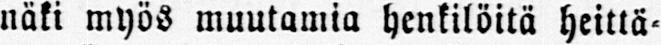näki myös muutamia henkilöitä heittä-
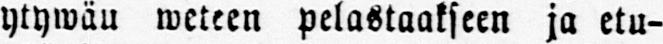ytywäu weteen pelastaakseen ja etu-
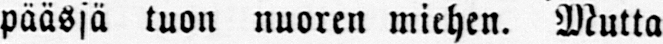päässä tuon nuoren miehen. Mutta
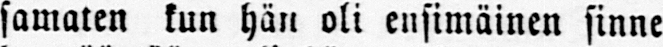samaten kun hän oli ensimäinen sinne
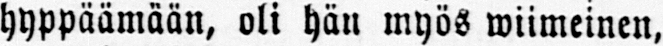hyppäämään, oli hän myös wiimeinen,
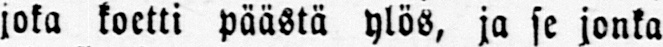joka koetti päästä ylös, ja se jonka
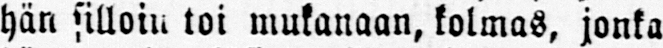hän silloin toi mukanaan, kolmas, jonka
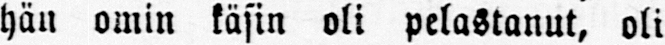hän omin käsin oli pelastanut, oli
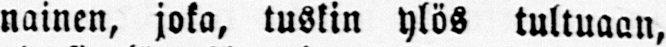nainen, joka, tuskin ylös tultuaan,
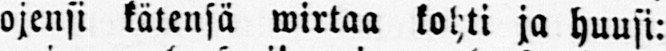ojensi kätensä wirtaa kohti ja huusi:
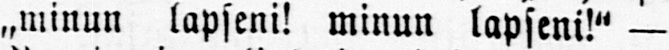„minun lapseni! minun lapseni!" —
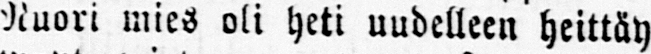Nuori mies oli heti uudelleen heittäy
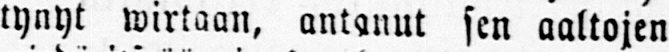tynyt wirtaan, antanut sen aaltojen
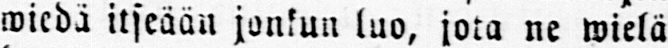wiedä itseään jonkun luo, jota ne wielä
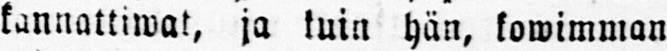kannattiwat, ja kuin hän, kowimman
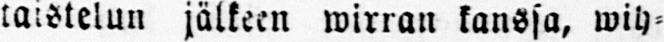taistelun jälkeen wirran kanssa, wih-
